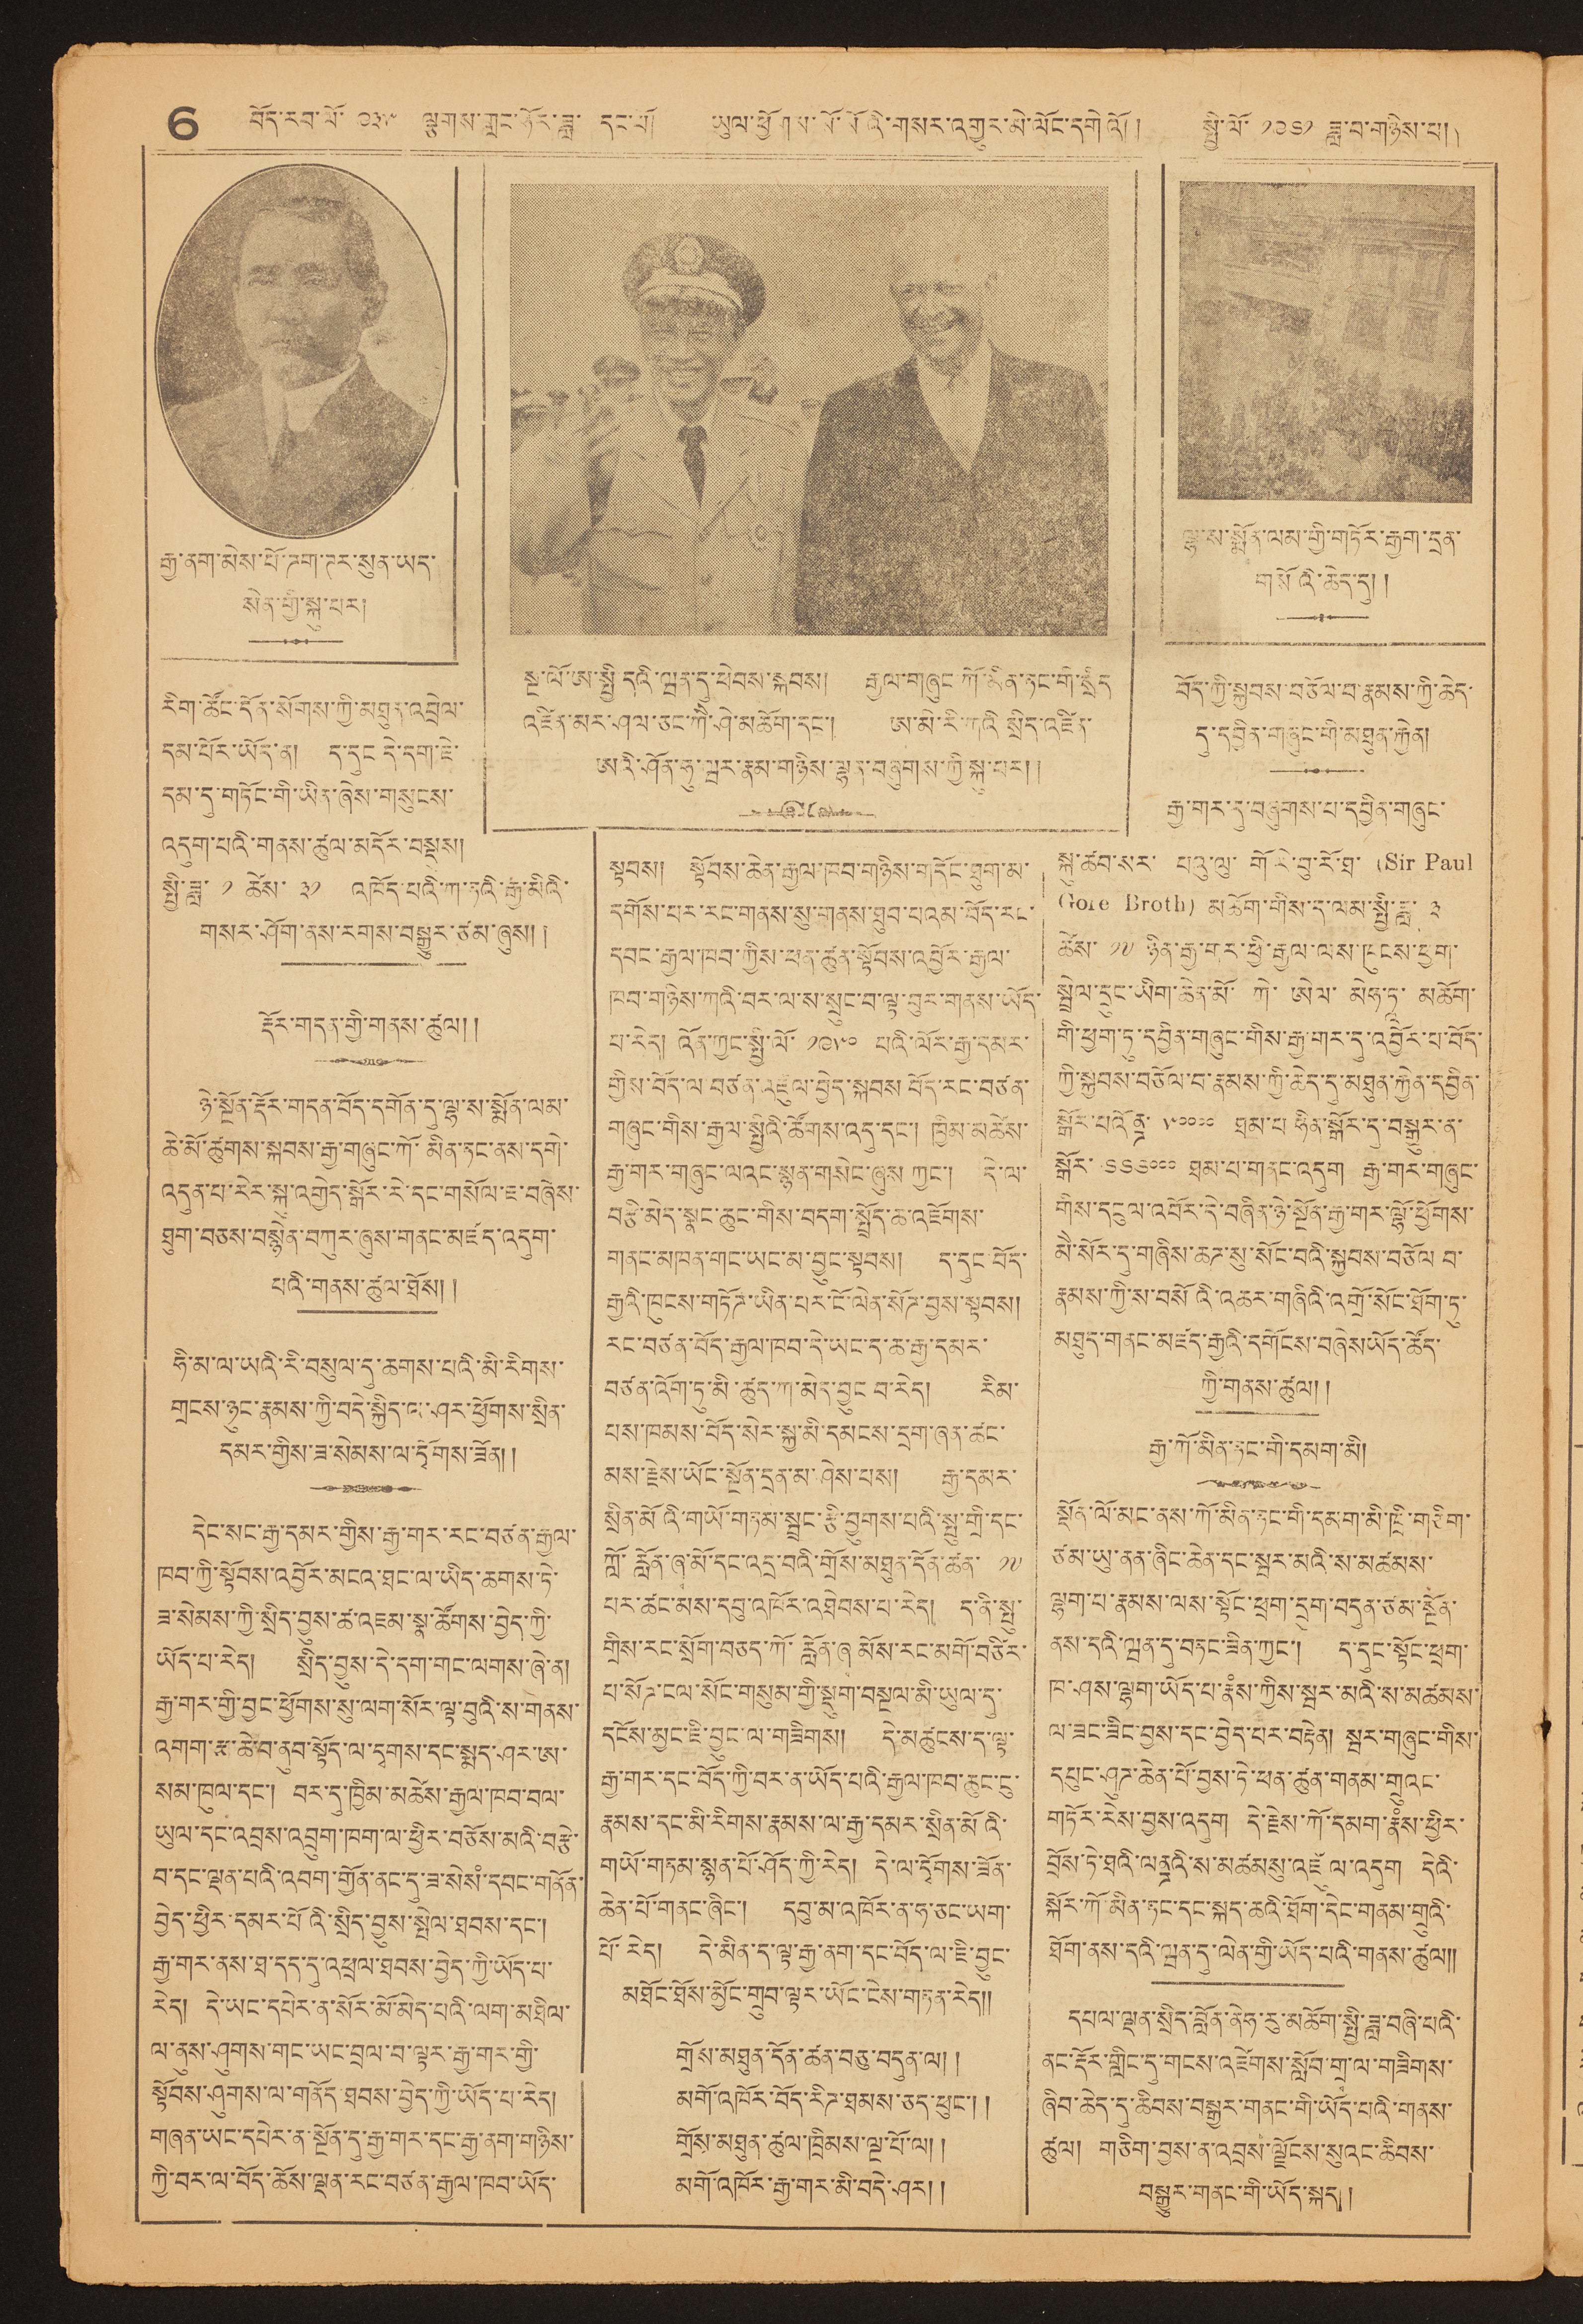6 བོད་རབ་ལོ་ ༩༣༥ ལྕགས་གླང་ཧོར་ཟླ་ དང་པོ། ཡུལ་ཕྱོགས་སོ་སོའི་གསར་འགྱུར་མེ་ལོང་དགེའོ།། སྤྱི་ལོ་ ༡༩༦༡ ཟླ་བ་གཉིས་པ།།
རྒྱ་ནག་མེས་པོ་ཌག་ཊར་སུན་ཡད་
སེན་གྱི་སྐུ་པར།
རིག་ཚོང་དོན་སོགས་ཀྱི་མཐུན་འབྲེལ་
དམ་པོར་ཡོད་ན། ད་དུང དེ་དག་ཇེ་
དམ་དུ་གཏོང་གི་ཡིན་ཞེས་གསུངས་
འདུག་པའི་གནས་ཚུལ་མདོར་བསྡུས།
སྤྱི་ཟླ་ ༡ ཚེས་ ༣༡ འཁོད་པའི་ཀ་ཏའི་རྒྱ་མིའི་
གསར་ཤོག་ནས་རགས་བསྒྱུར་ཙམ་ཞུས།།
རྡོར་གདན་གྱི་གནས་ཚུལ།།
ཉེ་སྔོན་རྡོར་གདན་བོད་དགོན་དུ་ལྷ་ས་སྨོན་ལམ་
ཆེ་མོ་ཚུགས་སྐབས་རྒྱ་གཞུང་ཀོ་མིན་ཏང་ནས་དགེ་
འདུན་པ་རེར་སྐུ་འགྱེད་སྒོར་རེ་དང་གསོལ་ཇ་བཞེས་
ཐུག་བཅས་བསྙེན་བཀུར་ཞུས་གནང་མཛད་འདུག་
པའི་གནས་ཚུལ་ཐོས།།
ཧི་མ་ལ་ཡའི་རི་བསུལ་དུ་ཆགས་པའི་མི་རིགས་
གྲངས་ཉུང་རྣམས་ཀྱི་བདེ་སྐྱིད་ལ་ཤར་ཕྱོགས་སྲིན་
དམར་གྱིས་ཟ་སེམས་ལ་དྭོགས་ཟོན།།
དེང་སང་རྒྱ་དམར་གྱིས་རྒྱ་གར་རང་བཙན་རྒྱལ་
ཁབ་ཀྱི་སྟོབས་འབྱོར་མངའ་ཐང་ལ་ཡིད་ཆགས་ཏེ་
ཟ་སེམས་ཀྱི་སྲིད་བྱུས་ཚ་འཇམ་སྣ་ཚོགས་བྱེད་ཀྱི་
ཡོད་པ་རེད། སྲིད་བྱུས་དེ་དག་གང་ལགས་ཞེ་ན།
རྒྱ་གར་གྱི་བྱང་ཕྱོགས་སུ་ལག་སོར་ལྟ་བུའི་ས་གནས་
འགག་རྩ་ཆེ་བ་ནུབ་སྟོད་ལ་དྭགས་དང་སྨད་ཤར་ཨ་
སམ་ཁུལ་དང་། བར་དུ་ཁྱིམ་མཚེས་རྒྱལ་ཁབ་བལ་
ཡུལ་དང་འབྲས་འབྲུག་ཁག་ལ་ཕྱིར་བཅོས་མའི་བརྩེ་
བ་དང་ལྡན་པའི་འབག་གྱོན་ནང་དུ་ཟ་སེསཾ་དབང་གནོན་
བྱེད་ཕྱིར་དམར་པོའི་སྲིད་བྱུས་སྤེལ་ཐབས་དང་།
རྒྱ་གར་ནས་ཐ་དད་དུ་འཕྲལ་ཐབས་བྱེད་ཀྱི་ཡོད་པ་
རེད། དེ་ཡང་དཔེར་ན་སོར་མོ་མེད་པའི་ལག་མཐིལ་
ལ་ནུས་ཤུགས་གང་ཡང་བྲལ་བ་ལྟར་རྒྱ་གར་གྱི་
སྟོབས་ཤུགས་ལ་གནོད་ཐབས་བྱེད་ཀྱི་ཡོད་པ་རེད།
གཞན་ཡང་དཔེར་ན་སྔོན་དུ་རྒྱ་གར་དང་རྒྱ་ནག་གཉིས་
ཀྱི་བར་ལ་བོད་ཆོས་ལྡན་རང་བཙན་རྒྱལ་ཁབ་ཡོད་
སྔ་ལོ་ཨ་སྤྱི་དའི་ཝན་དུ་ཕེབས་སྐབས། རྒྱལ་གཞུང་ཀོ་མིན་ཏང་གི་སྲིད་
འཛིན་མར་ཤལ་ཅང་ཀཻ་ཤེ་མཆོག་དང་། ཨ་མི་རི་ཀའི་སྲིད་འཛིན་
ཨའི་ཤོན་ཧུ་ཝར་རྣམ་གཉིས་ལྷན་བཞུགས་ཀྱི་སྐུ་བར།།
སྟབས། སྟོབས་ཆེན་རྒྱལ་ཁབ་གཉིས་གདོང་ཐུག་མ་
དགོས་པར་རང་གནས་སུ་གནས་ཐུབ་པའམ་བོད་རང་
དབང་རྒྱལ་ཁབ་གྱིས་ཕན་ཚུན་སྟོབས་འབྱོར་རྒྱལ་
ཁབ་གཉིས་ཀའི་བར་ལ་ས་སྲུང་བ་ལྟ་བུར་གནས་ཡོད་
པ་རེད། འོན་ཀྱང་སྤྱི་ལོ་ ༡༩༥༠ པའོ་ལོར་རྒྱ་དམར་
གྱིས་བོད་ལ་བཙན་འཛུལ་བྱེད་སྐབས་བོད་རང་བཙན་
གཞུང་གིས་རྒྱལ་སྤྱིའི་ཚོགས་འདུ་དང་། ཁྱིམ་མཚེས་
རྒྱ་གར་གཞུང་ལའང་སྙན་གསེང་ཞུས་ཀྱང་། དེ་ལ་
བརྩི་མེད་སྣང་ཆུང་གིས་བདག་སྤྲོད་ཆ་འཇོགས་
གནང་མཁན་གང་ཡང་མ་བྱུང་སྟབས། ད་དུང་བོད་
རྒྱའི་ཁུངས་གཏོཊ་ཡིན་པར་ངོ་ལེན་སོཊ་བྱས་སྟབས།
རང་བཙན་བོད་རྒྱལ་ཁབ་དེ་ཡང་ད་ཆ་རྒྱ་དམར་
བཙན་འོག་ཏུ་མི་ཚུད་ཀ་མེད་བྱུང བ་རེད། རིམ་
པས་ཁམས་བོད་སེར་སྐྱ་མི་མངས་དྲག་ཞན་ཚང་
མས་རྗེས་ཡོང་སྔོན་དྲན་མ་ཤེས་པས། རྒྱ་དམར་
སྲིན་མོའི་གཡོ་གཏམ་སྦྲང་རྩི་བྱུགས་པའི་སྤུ་གྲི་དང་
ཀློ་རློན་ཞྭ་མོ་དང་འདྲ་བའི་གྲོས་མཐུན་དོན་ཚན་ ༡༧
པར་ཚང་མས་དབུ་འཁོར་འཐེབས་པ་རེད། ད་ནི་སྤུ་
གྲིས་རང་སྲོག་བཅད་ཀོ་རློན་ཞྭ མོས་རང་མགོ་བཙིར་
པ་སོཊ་ངལ་སོང་གསུམ་གྱི་སྡུག་བསྔལ་མི་ཡུལ་དུ་
དངོས་མྱང་ཇི་བྱུང་ལ་གཟིགས། དེ་མཚུངས་ད་ལྟ་
རྒྱ་གར་དང་བོད་ཀྱི་བར་ན་ཡོད་པའི་རྒྱལ་ཁབ་ཆུང་ངུ་
རྣམས་དང་མི་རིགས་རྣམས་ལ་རྒྱ་དམར་སྲིན་མོའི་
གཡོ་གཏམ་སྙན་པོ་ཤོད་ཀྱི་རེད། དེ་ལ་དྭོགས་ཟོན་
ཆེན་པོ་གནང་ཞིང་། དབུ་མ་འཁོར་ན་ཧ་ཅང་ཡག་
པོ་རེད། དེ་མིན་ད་ལྟ་རྒྱ་ནག་དང་བོད་ལ་ཇི་བྱུང་
མཐོང་ཐོས་བྱོང་གྲུབ་ལྟར་ཡོང་ངེས་གཏན་རེད།།
གྲོས་མཐུན་དོན་ཚན་བཅུ་བདུན་ལ།།
མགོ་འཁོར་བོད་རིཊ་ཐམས་ཅད་ཕུང་།།
གྲོས་མཐུན་ཚུལ་ཁྲིམས་ལྔ་པོ་ལ།།
མགོ་འཁོར་རྒྱ་གར་མི་བདེ་ཤར།།
ལྷ་ས་སྨོན་ལམ་གྱི་གཏོར་རྒྱག་དྲན་
གསོའི་ཆེད་དུ།།
བོད་ཀྱི་སྐྱབས་བཅོལ་བ་རྣམས་ཀྱི་ཆེད་
དུ་དབྱིན་གཞུང་གི་མཐུན་རྐྱེན།
རྒྱ་གར་དུ་བཞུགས་པ་དབྱིན་གཞུང་
སྐུ་ཚབ་སར་པའུ་ལུ་གོ་རེ་བུ་རོ་ཐ་(Sir Paul
Gore Broth) མཆོག་གིས་ད་ལམ་སྤྱི་ཟླ ༣
ཚེས་ ༡༧ ཉིན་རྒྱ་གར་ཕྱི་རྒྱལ་ལས་ཁུངས་ཕྱག་
སྦྲེལ་དྲུང་ཡིག་ཆེན་མོ་ ཀེ་ ཨེལ་ མེཧ་ཏཱ་ མཆོག་
གི་ཕྱག་ཏུ་དབྱིན་གཞུང་གིས་རྒྱ་གར་དུ་འབྱོར་པ་བོད་
ཀྱི་སྐྱབས་བཅོལ་བ་རྣམས་ཀྱི་ཆེད་དུ་མཐུན་རྐྱེན་དབྱིན་
སྒོར་པའོནྜ་ ༥༠༠༠༠ ཐམ་པ ཧིན་སྒོར་དུ་བསྒྱུར་ན་
སྒོར་ ༦༦༦༠༠༠ ཐམ་པ་གནང་འདུག རྒྱ་གར་གཞུང་
གིས་དངུལ་འབོར་དེ་བཞིན་ཉེ་སྔོན་རྒྱ་གར་ལྷོ་ཕྱོགས་
མཻ་སོར་དུ་གཞིས་ཆཊ་སུ་སོང་བའི་སྐྱབས་བཅོལ བ་
རྣམས་ཀྱི་ས་བསོའི་འཆར་གཞིའི་འགྲོ་སོང་ཐོག་ཏུ་
མཐུན་གནང་མཛད་རྒྱའི་དགོངས་བཞེས་ཡོད་ཚོད་
ཀྱི་གནས་ཚུལ།།
རྒྱ་ཀོ་མིན་ཏང་གི་དམག་མི།
སྔོན་ལོ་མང་ནས་ཀོ་མིན་ཏང་གི་དམག་མི་ཁྲི་གཅིག་
ཙམ་ཡུ་ནན་ཞིང་ཆེན་དང་སྦར་མའི་ས་མཚམས་
ལྷག་པ་རྣམས་ལས་སྟོང་ཕྲག་དྲུག་བདུན་ཙམ་སྔོན་
ནས་དའི་ཝན་དུ་བཏང་ཟིན་ཀྱང་། ད་དུང་སྟོང་ཕྲག་
ཁ་ཤས་ལྷག་ཡོད་པ་རྣཾས་ཀྱིས་སྦར་མའི་ས་མཚམས་
ལ་ཟང་ཟིང་བྱས་དང་བྱེད་པར་བརྟེན། སྦར་གཞུང་གིས་
དཔུང་ཤུཊ་ཆེན་པོ་བྱས་ཏེ་ཕན་ཚུན་གནམ་གྲུའང་
གཏོང་རེས་བྱས་འདུག དེ་རྗེས་ཀོ་དམག་རྣཾས་ཕྱིར་
བྲོས་ཏེ་ཐའི་ལནྜའི་ས་མཚམསུ་འཛུལ་འདུག དེའི་
སྐོར་ཀོ་མིན་ཏང་དང་སྐད་ཆའི་ཐོག་དེང་གནས་གྲུའི་
ཐོག་ནས་དའི་ཝན་དུ་ལེན་གྱི་ཡོད་པའི་གནས་ཚུལ།།
དཔལ་ལྡན་སྲིད་བློན་ནེཧ་རུ་མཆོག་སྤྱི་ཟླ་བཞི་པའི་
ནང་རྡོར་གླིང་དུ་གངས་འཛེགས་སློབ་གྲྭ་ལ་གཟིགས་
ཞིབ་ཆེད་དུ་ཆིབས་བསྒྱུར་གནང་གི་ཡོད་པའི་གནས་
ཚུལ། གཅིག་བྱས་ན་འབྲས་ལྗོངས་སུའང་ཆིབས་
བསྒྱུར་གནང་གི་ཡོད་སྐད།།
